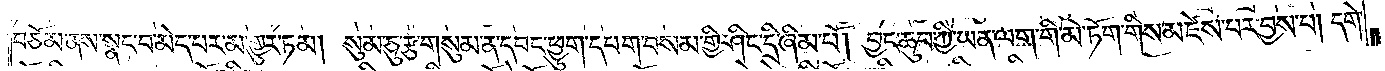བཅོམ་ནས་སྣང་བ་མེད་པར་མ་གྱུར་ཏམ། སུམ་ཅུ་རྩ་གསུམ་ན་དབང་ཕྱུག་དཔག་བསམ་གྱི་ཤིང་དྲི་ཞིམ་པོ། བྱང་ཆུབ་ཀྱི་ཡན་ལག་གི་མེ་ཏོག་གིས་མཛེས་པར་བྱས་པ། དགེ་
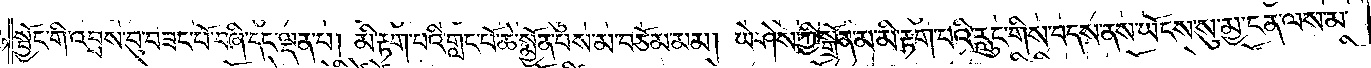སྦྱོང་གི་འབྲས་བུ་བཟང་པོ་བཞི་དང་ལྡན་པ། མི་རྟག་པའི་གླང་པོ་ཆེ་སྨྱོན་པས་མ་བཅོམ་མམ། ཡེ་ཤེས་ཀྱི་སྒྲོན་མ་མི་རྟག་པའི་རླུང་གིས་བདས་ནས་ཡོངས་སུ་མྱ་ངན་ལས་མ་
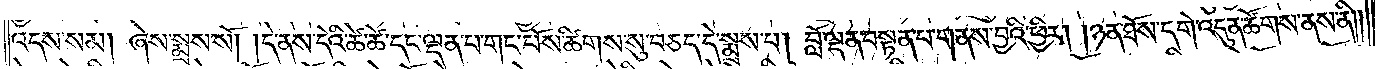འདས་སམ། ཞེས་སྨྲས་སོ། །དེ་ནས་དེའི་ཚེ་ཚེ་དང་ལྡན་པ་གང་པོས་ཚིགས་སུ་བཅད་དེ་སྨྲས་པ། བློ་ལྡན་བསྟན་པ་གནས་བྱའི་ཕྱིར། །ཉན་ཐོས་དགེ་འདུན་ཚོགས་ནས་ནི༎
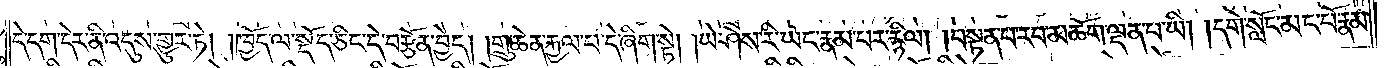དེ་དག་དེར་ནི་འདུས་གྱུར་ཏེ། །ཁྱོད་ལ་སྡོད་ཅིང་དེ་བརྩོན་བྱེད། །གྲུ་ཆེན་རྐྱལ་པ་དེ་ཞིག་སྟེ། །ཡེ་ཤེས་རི་ཡང་རྣམ་པར་རྙིལ། །བསྟན་པ་རབ་མཆོག་ལྡན་པ་ཡི། །དགེ་སློང་མང་པོ་རྣམ་
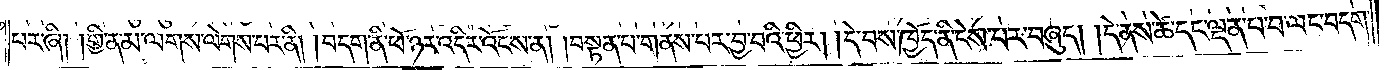པར་ཞི། །གྱི་ན་མ་ལགས་ལེགས་པར་ནི། །བདག་ནི་ཕོ་ཉར་འདིར་འོངས་ན། །བསྟན་པ་གནས་པར་བྱ་བའི་ཕྱིར། །དེ་བས་ཁྱོད་ནི་ངེས་པར་བཞུད། །དེ་ནས་ཚེ་དང་ལྡན་པ་བ་ལང་བདག་
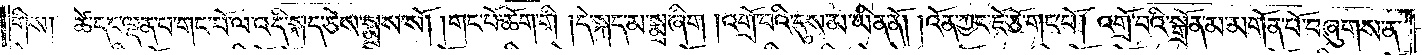གིས། ཚེ་དང་ལྡན་པ་གང་པོ་ལ་འདི་སྐད་ཅེས་སྨྲས་སོ། །གང་པོ་ཆོག་གི །དེ་སྐད་མ་སྨྲ་ཞིག །འགྲོ་བའི་དུས་མ་ཡིན་ནོ། །འོན་ཀྱང་ཇོ་ཅོ་གང་པོ། འགྲོ་བའི་སྒྲོན་མ་མགོན་པོ་བཞུགས་ན་
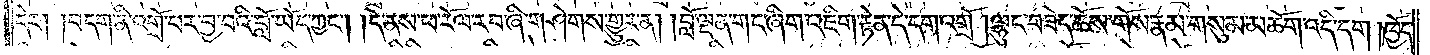དེར། །བདག་ནི་འགྲོ་བར་བྱ་བའི་བློ་ཡོད་ཀྱང༌། །དེ་ནས་ཕ་རོལ་རབ་ཞི་གཤེགས་གྱུར་ན། །བློ་ལྡན་གང་ཞིག་འཇིག་རྟེན་དེ་དག་འགྲོ །ལྷུང་བཟེད་ཆོས་གོས་རྣམ་གསུམ་མཆོག་འདི་དག །ཁྱོད་
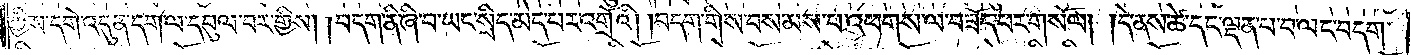ཀྱིས་དགེ་འདུན་དག་ལ་དབུལ་བར་གྱིས། །བདག་ནི་ཞི་བ་ཡང་སྲིད་མེད་པར་འགྲོའི། །བདག་གིས་བསམས་པ་འཕགས་ལ་བཟོད་པར་གསོལ། །དེ་ནས་ཚེ་དང་ལྡན་པ་བ་ལང་བདག་
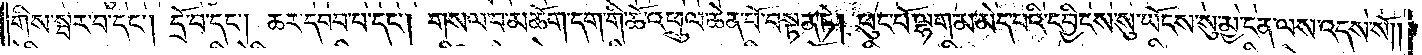གིས་སྦར་བ་དང༌། དྲོ་བ་དང༌། ཆར་དབབ་པ་དང༌། གསལ་བ་མཆོག་དག་གི་ཆོ་འཕྲུལ་ཆེན་པོ་བསྟན་ཏེ། ཕུང་པོ་ལྷག་མ་མེད་པའི་དབྱིངས་སུ་ཡོངས་སུ་མྱ་ངན་ལས་འདས་སོ༎
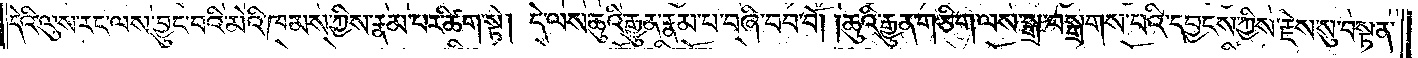དེའི་ལུས་རང་ལས་བྱུང་བའི་མེའི་ཁམས་ཀྱིས་རྣམ་པར་ཚིག་སྟེ། དེ་ལས་ཆུའི་རྒྱུན་རྣམ་པ་བཞི་བབ་བོ། །ཆུའི་རྒྱུན་གཅིག་ལས་སྒྲ་བསྒྲགས་པའི་དབྱངས་ཀྱིས་རྗེས་སུ་བསྟན་
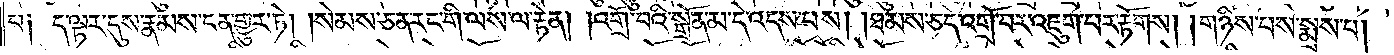པ༑ ད་ལྟར་དུས་རྣམས་ངན་གྱུར་ཏེ། །སེམས་ཅན་རང་གི་ལས་ལ་རྟེན། །འགྲོ་བའི་སྒྲོན་མ་དེ་འདས་པས། །ཐམས་ཅད་འགྲོ་བར་འཇུག་པར་རྟོགས། །གཉིས་པས་སྨྲས་པ།
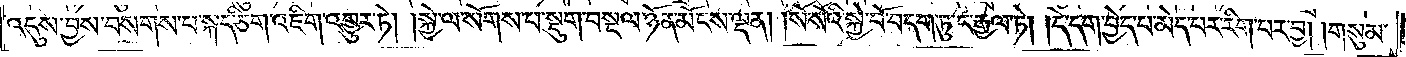འདུས་བྱས་བསགས་པ་སྐད་ཅིག་འཇིག་འགྱུར་ཏེ། །སྐྱེ་ལ་སོགས་པ་སྡུག་བསྔལ་ཉོན་མོངས་ལྡན། །སོ་སོའི་སྐྱེ་བོ་བདག་ཏུ་ང་རྒྱལ་ཏེ། །དེ་དག་བྱེད་པ་མེད་པར་རིག་པར་བྱ། །གསུམ་
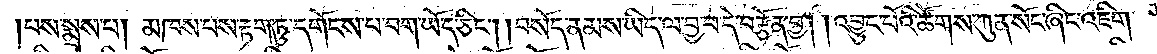པས་སྨྲས་པ། མཁས་པས་རྟག་ཏུ་དགོངས་པ་བག་ཡོད་ཅིང༌། །བསོད་ནམས་ཡིད་ལ་བྱ་བ་དེ་བརྩོན་བྱ། །འབྱུང་པོའི་ཚོགས་ཀུན་སོང་ཞིང་འཇིག་
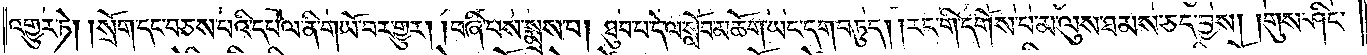འགྱུར་ཏེ། །སྲོག་དང་བཅས་པའི་དཔལ་ནི་གཡོ་བར་གྱུར། །བཞི་པས་སྨྲས་བ། ཐུབ་པ་དེ་ལ་སློབ་མཆོག་ཡང་དག་བཏུད། །རང་གི་དགོས་པ་མ་ལུས་ཐམས་ཅད་བྱས། །གུས་ཤིང་
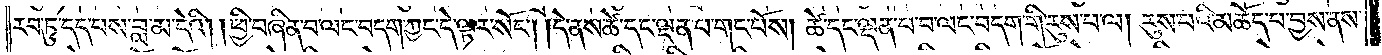རབ་ཏུ་དད་པས་བླ་མ་དེའི། །ཕྱི་བཞིན་པ་ལང་བདག་ཀྱང་དེ་ལྟར་སོང༌། །དེ་ནས་ཚེ་དང་ལྡན་པ་གང་པོས། ཚེ་དང་ལྡན་པ་བ་ལང་བདག་གི་རུས་པ་ལ། རུས་པའི་མཆོད་པ་བྱས་ནས་
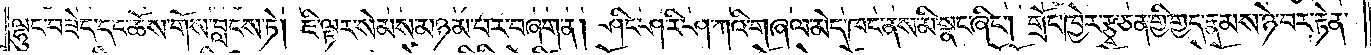ལྷུང་བཟེད་དང་ཆོས་གོས་བླངས་ཏེ། ཇི་ལྟར་སེམས་མཉམ་པར་བཞག་ན། ཤིང་ཤ་རི་ཤ་ཀའི་གཞལ་མེད་ཁང་ནས་མི་སྣང་ཞིང༌། གྲོང་ཁྱེར་རྩྭ་ཅན་གྱི་གྱད་རྣམས་ཉེ་བར་རྟེན་
